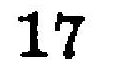17
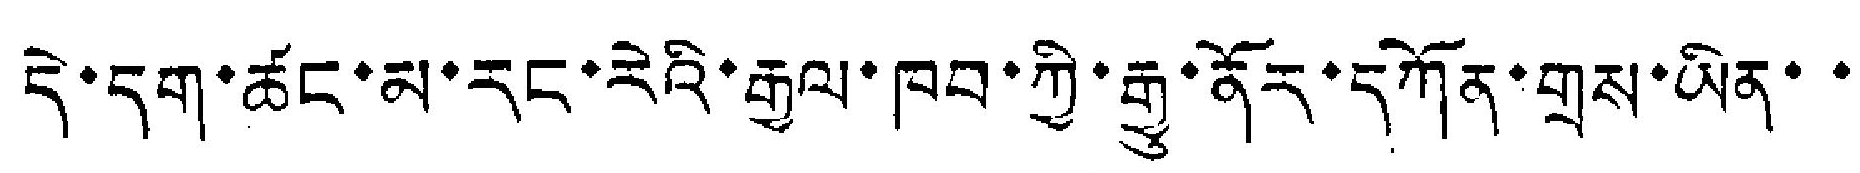དེ་དག་ཚང་མ་རང་རེའི་རྒྱལ་ཁབ་ཀྱི་རྒྱུ་ནོར་དཀོན་གྲས་ཡིན་་
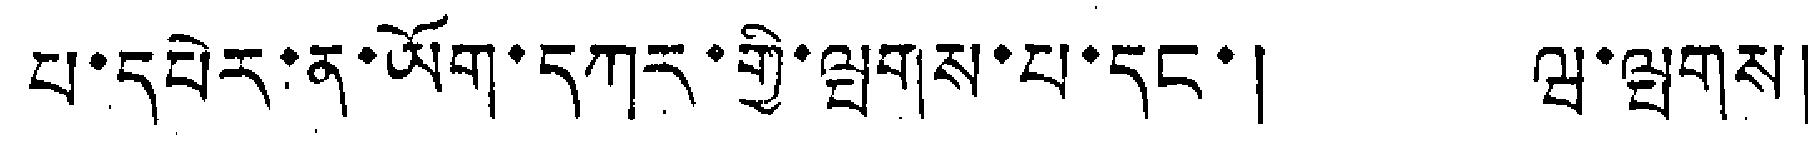པ་དཔེར་ན་ཡོག་དཀར་གྱི་ལྤགས་པ་དང་། ཝ་ལྤགས།
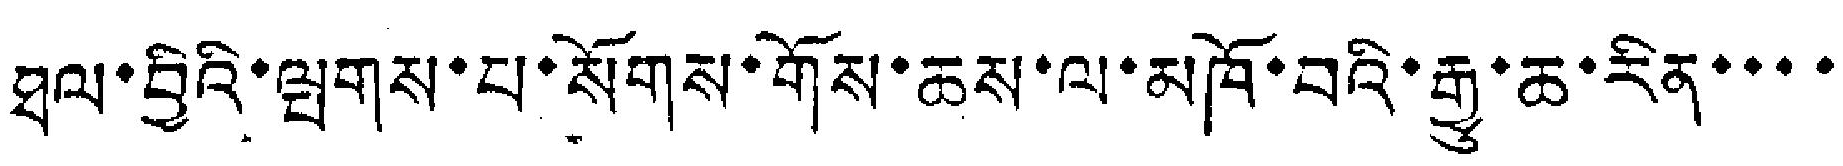ཐལ་བྱིའི་ལྤགས་པ་སོགས་གོས་ཆས་ལ་མཁོ་བའི་རྒྱུ་ཆ་རིན་་་་
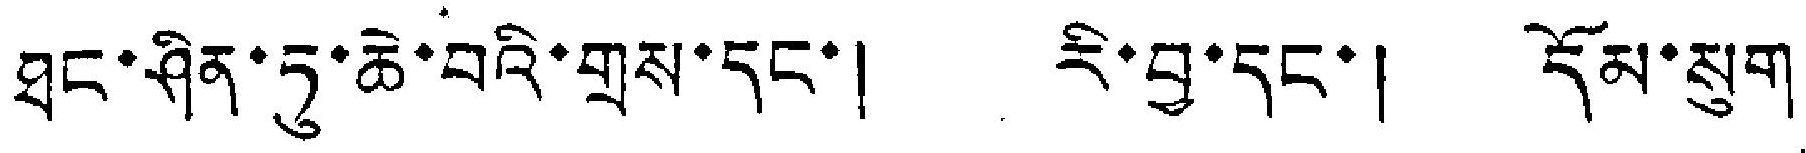ཐང་ཤིན་ཏུ་ཆེ་བའི་གྲས་དང་། རི་བྱ་དང་། དོམ་སུག་
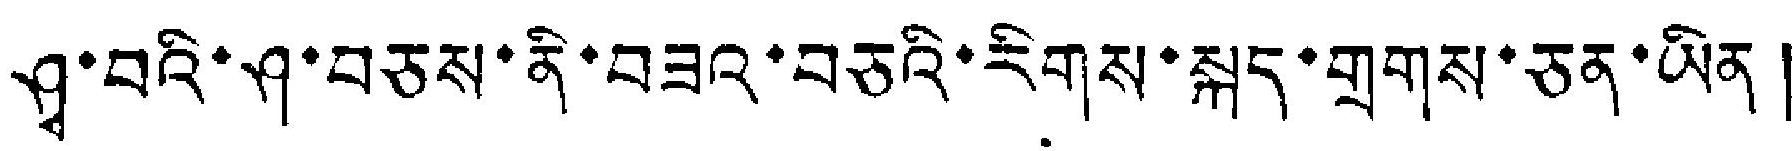ཤྭ་བའི་ཤ་བཅས་ནི་བཟའ་བཅའི་རིགས་སྐད་གྲགས་ཅན་ཡིན།
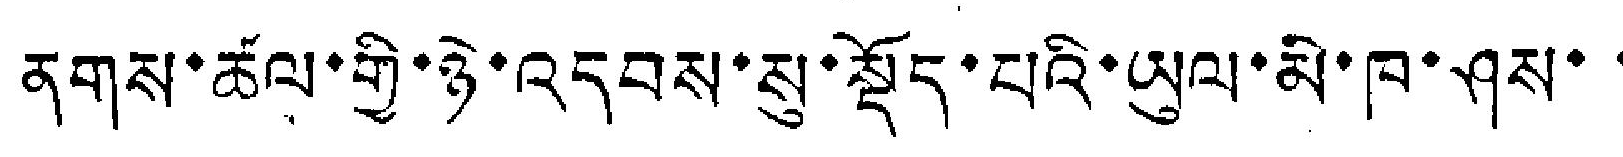ནགས་ཚལ་གྱི་ཉེ་འདབས་སུ་སྡོད་པའི་ཡུལ་མི་ཁ་ཤས་་
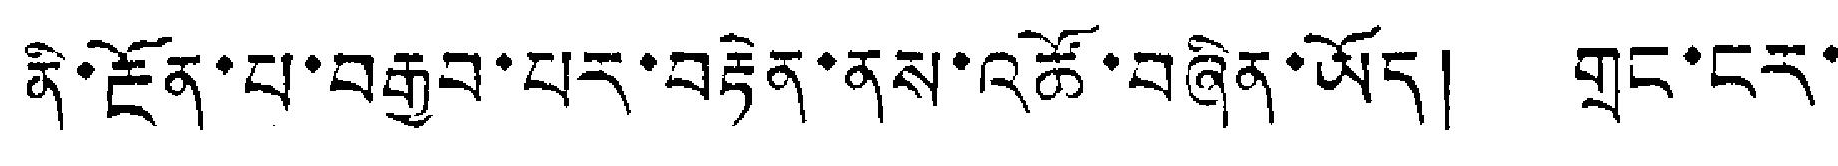ནི་རྔོན་པ་བརྒྱབ་པར་བརྟེན་ནས་འཚོ་བཞིན་ཡོད། གྲང་ངར་
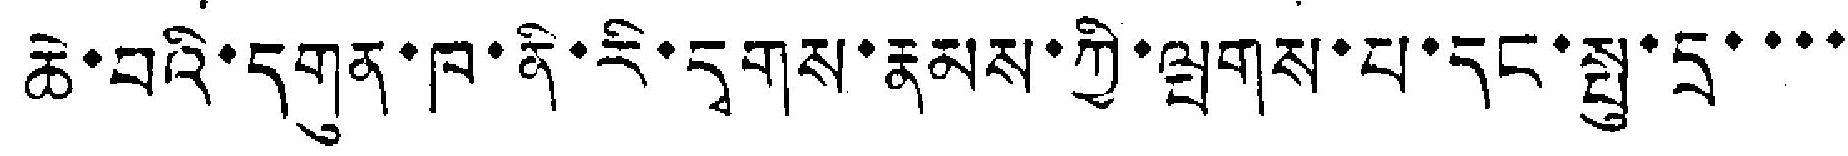ཆེ་བའི་དགུན་ཁ་ནི་རི་དྭགས་རྣམས་ཀྱི་ལྤགས་པ་དང་སྤུ་དྲ་་་་
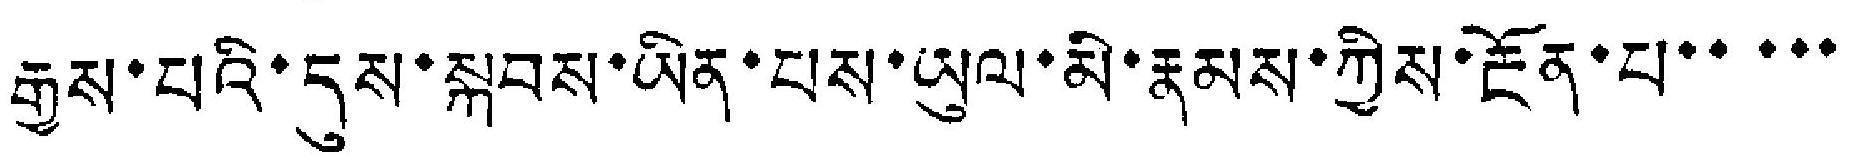རྒྱས་པའི་དུས་སྐབས་ཡིན་པས་ཡུལ་མི་རྣམས་ཀྱིས་རྫོན་པ་་་་་་
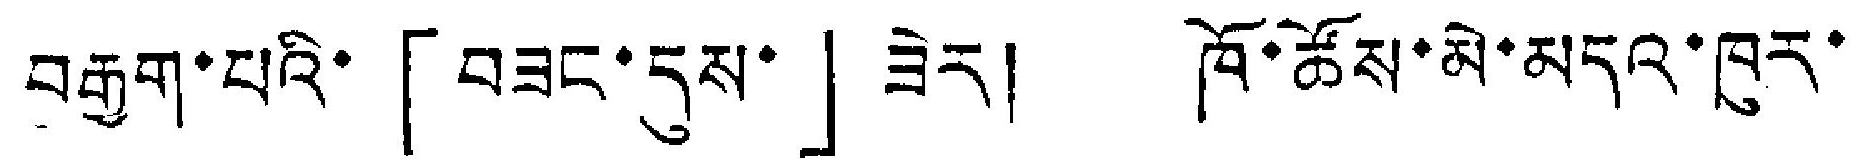བརྒྱག་པའི་「བཟང་དུས་」ཟེར། ཁོ་ཚོས་མེ་མདའ་ཁུར་
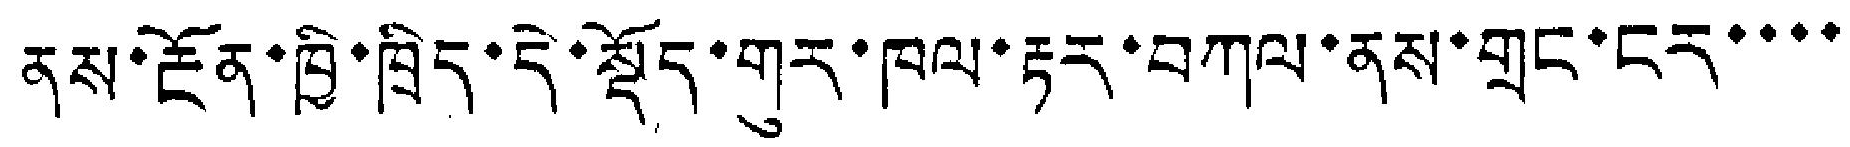ནས་རྔོན་ཁྱི་ཁྲིད་དེ་སྡོད་གར་ཁལ་རྟར་བཀལ་ནས་གྲང་ངར་་་་
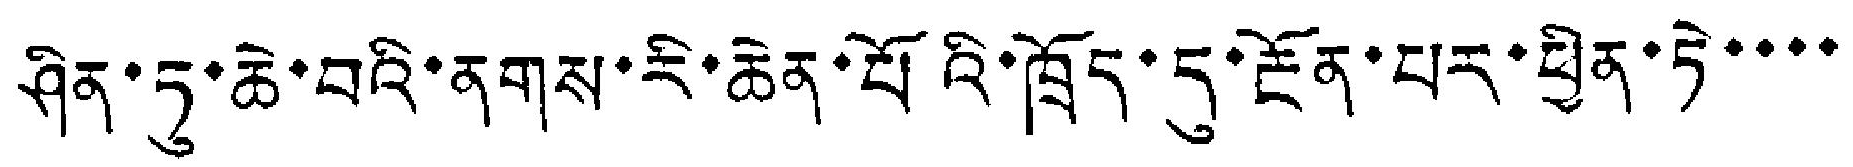ཤིན་ཏུ་ཆེ་བའི་ནགས་རི་ཆེན་པོའི་ཁྲོད་དུ་རྔོན་པར་ཕྱིན་ཏེ་་་་་
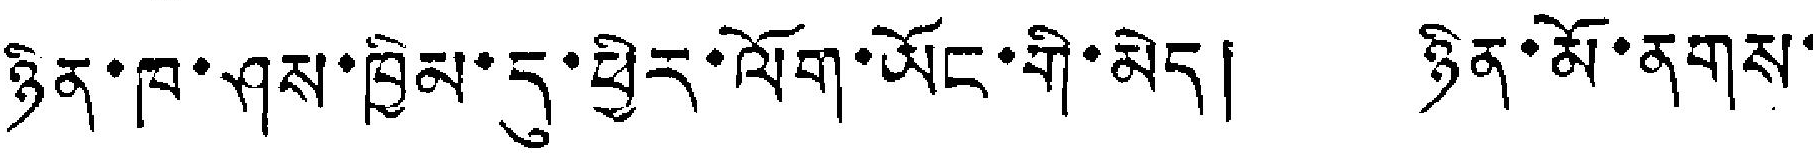ཉིན་ཁ་ཤས་ཁྱིམ་དུ་ཕྱིར་ལོག་ཡོང་གི་མེད། ཉིན་མོ་ནགས་
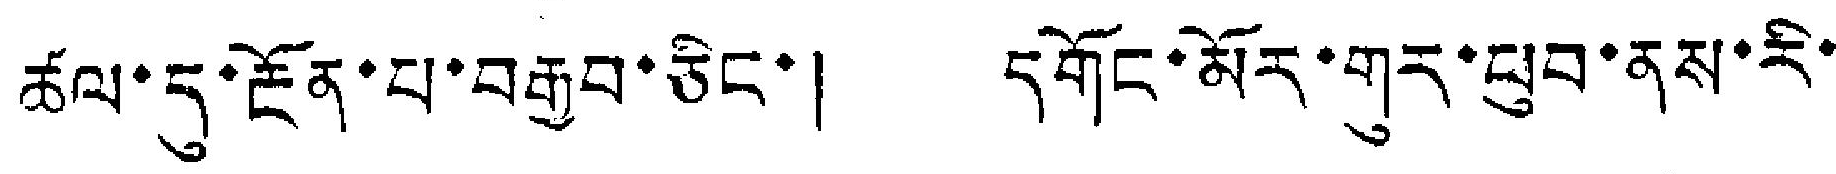ཚལ་དུ་རྔོན་པ་བརྒྱབ་ཅིང་། དགོང་མོར་གུར་ཕུབ་ནས་རི་
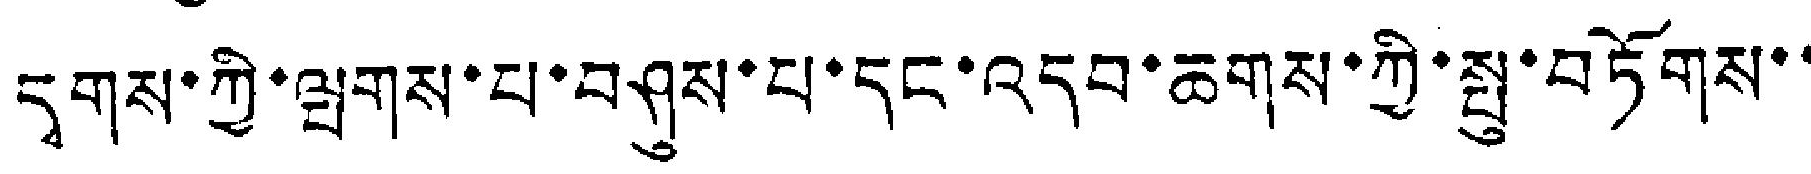དྭགས་ཀྱི་ལྤགས་པ་བཤུས་པ་དང་འདབ་ཆགས་ཀྱི་སྤུ་བཏོགས་་
